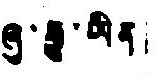ཞུ་རྒྱུ་ཡིན།
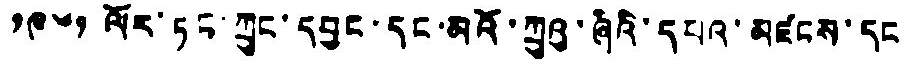༡༩༦༡ ལོར་ཏང་ཀྲུང་དབྱང་དང་མའོ་ཀྲུའུ་ཞིའི་དཔའ་མཛངས་དང
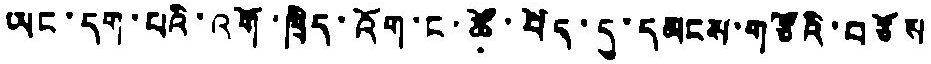ཡང་དག་པའི་འགོ་ཁྲིད་འོག་ང་ཚོ་བོད་དུ་དམངས་གཙོའི་བཙོས
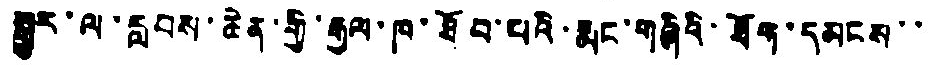སྒྱུར་ལ་རླབས་ཆེན་གྱི་རྒྱལ་ཁ་ཐོབ་པའི་རྨང་གཞིའི་ཐོག་དམངས་་
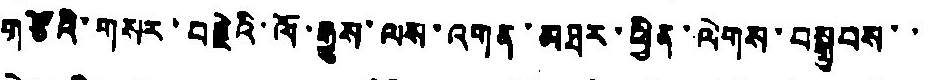གཙོའི་གསར་བརྗེའི་ལོ་རྒྱུས་ལས་འགན་མཐར་ཕྱིན་ལེགས་བསྒྲུབས་་་
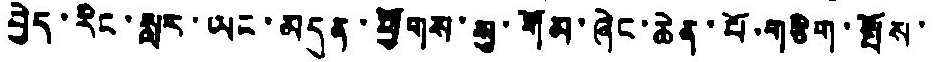བྱེད་རིང་སླར་ཡང་མདུན་ཕྱོགས་སུ་གོམ་ཞེང་ཆེན་པོ་གཅིག་སྤོས་
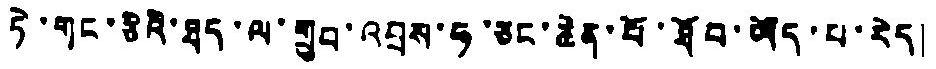ཏེ་གང་ཅིའི་ཐད་ལ་གྲུབ་འབྲས་ཧ་ཅང་ཆེན་པོ་ཐོབ་ཡོད་པ་རེད།
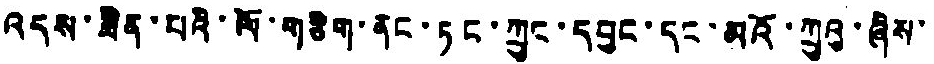འདས་ཟིན་པའི་ལོ་གཅིག་ནང་ཏང་ཀྲུང་དབྱང་དང་མའོ་ཀྲུའུ་ཞིས་
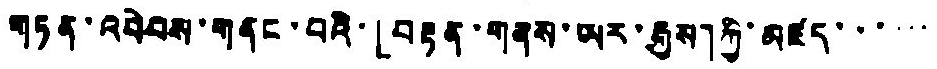གཏན་འབེབས་གནང་བའི་「བརྟན་གནས་ཡར་རྒྱས」ཀྱི་མཛད་་་་་་
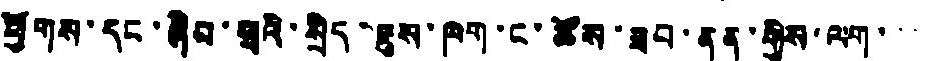ཕྱོགས་དང་ཞིབ་ཕྲའི་སྲིད་ཇུས་ཁག་ང་ཚོས་ཟབ་ནན་གྱིས་ལག་་་
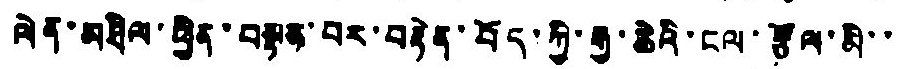ལེན་མཐིལ་ཕྱིན་བསྟན་པར་བརྟེན་བོད་ཀྱི་རྒྱ་ཆེའི་ངལ་རྩོལ་མི་་
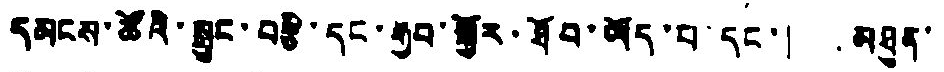དམངས་ཚོའི་སྲུང་བརྩི་དང་རྒྱབ་སྐྱོར་ཐོབ་ཡོད་པ་དང་། མཐུན་་
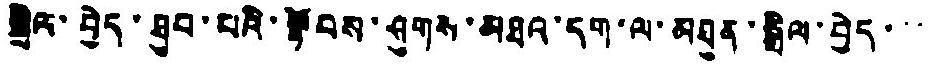སྒྲིལ་བྱེད་ཐུབ་པའི་སྟོབས་ཤུགས་མཐའ་དག་ལ་མཐུན་སྒྲིལ་བྱེད་་་་
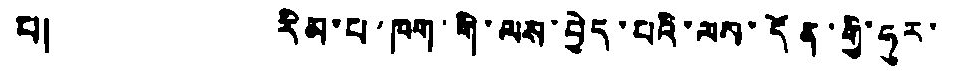པ། རིམ་པ་ཁག་གི་ལས་བྱེད་པའི་ལས་དོན་གྱི་ཧུར་
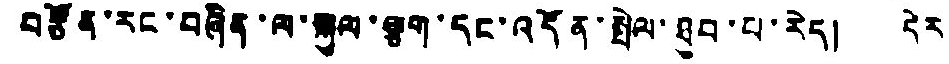བརྩོན་རང་བཞིན་ལ་སྐུལ་ལྕག་དང་འདོན་སྤེལ་ཐུབ་པ་རེད། དེར
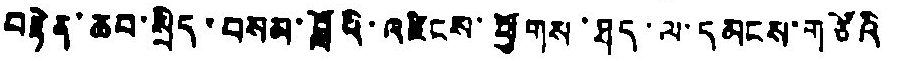བརྟེན་ཆབ་སྲིད་བསམ་བློའི་འཛིངས་ཕྱོགས་ཐད་ལ་དམངས་གཙོའི
